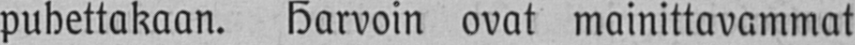puhettakaan. Harvoin ovat mainittavammat
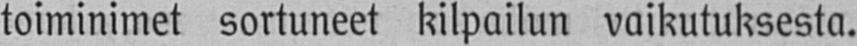toiminimet sortuneet kilpailun vaikutuksesta,
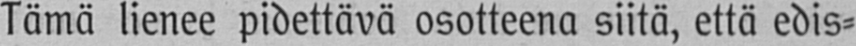Tämä lienee pidettävä osotteena siitä, että edis-
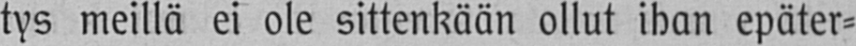tys meillä ei ole sittenkään ollut ihan epäter-
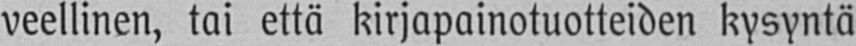veellinen, tai että kirjapainotuotteiden kysyntä
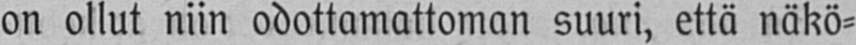on ollut niin odottamattoman suuri, että näkö-
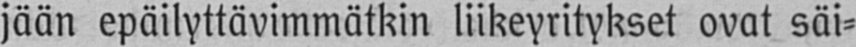jään epäilyttävimmätkin liikeyritykset ovat säi-
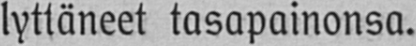lyttäneet tasapainonsa.
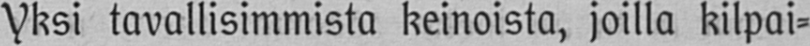Yksi tavallisimmista keinoista, joilla kilpai-
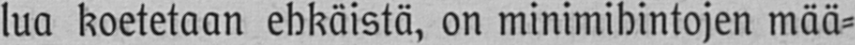lua koetetaan ehkäistä, on minimihintojen mää-
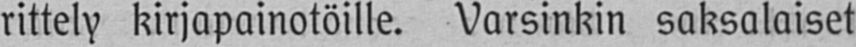rittely kirjapainotöille. Varsinkin saksalaiset
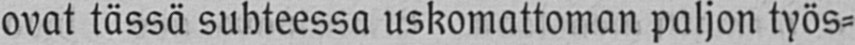ovat tässä suhteessa uskomattoman paljon työs-
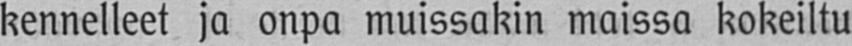kennelleet ja onpa muissakin maissa kokeiltu
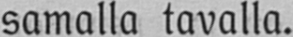samalla tavalla.
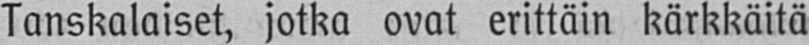Tanskalaiset, jotka ovat erittäin kärkkäitä
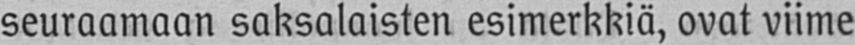seuraamaan saksalaisten esimerkkiä, ovat viime
